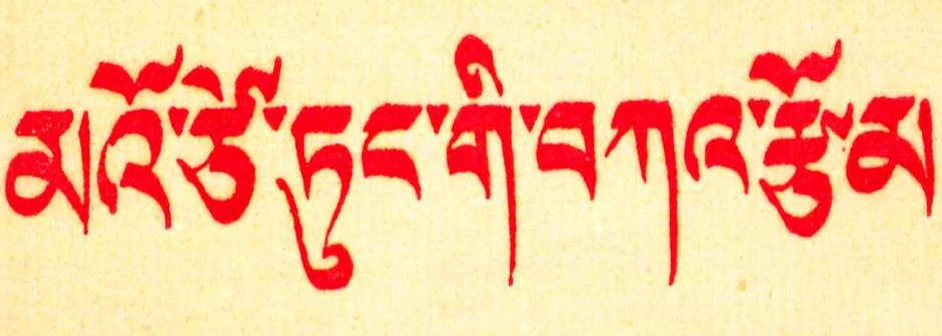མའོ་ཙེ་ཏུང་གི་བཀའ་རྩོམ
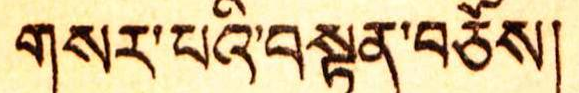གསར་པའི་བསྟན་བཅོས།
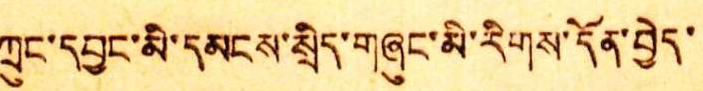ཀྲུང་དབྱང་མི་དམངས་སྲིད་གཞུང་མི་རིགས་དོན་བྱེད་
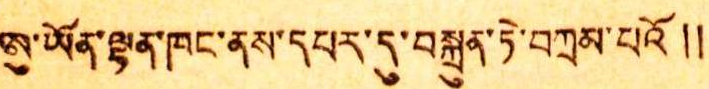ཨུ་ཡོན་ལྷན་ཁང་ནས་དཔར་དུ་བསྐྲུན་ཏེ་བཀྲམ་པའོ ༎
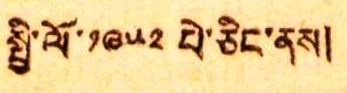སྤྱི་ལོ་༡༩༥༢ པེ་ཅིང་ནས།
